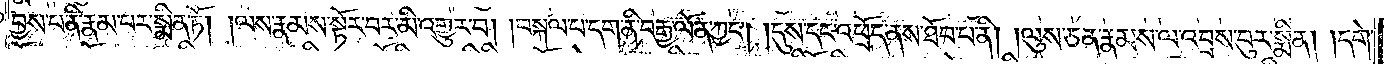བྱས་པ་ནི་རྣམ་པར་སྨིན་ཏོ། །ལས་རྣམས་སྟོར་བར་མི་འགྱུར་བ། །བསྐལ་པ་དག་ནི་བརྒྱ་ལོན་ཀྱང༌། །དུས་དང་འཕྲོད་ནས་ཐོབ་པ་ནི། །ལུས་ཅན་རྣམས་ལ་འབྲས་བུར་སྨིན། །དགེ་
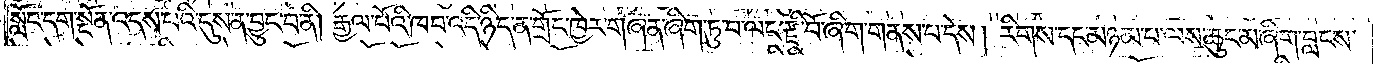སློང་དག་སྔོན་འདས་པའི་དུས་ན་བྱུང་བ་ནི། རྒྱལ་པོའི་ཁབ་འདི་ཉིད་ན་གྲོང་ཁྱེར་གཞན་ཞིག་ཏུ་བ་ལང་རྫི་བོ་ཞིག་གནས་པ་དེས། རིགས་དང་མཉམ་པ་ལས་ཆུང་མ་ཞིག་བླངས་
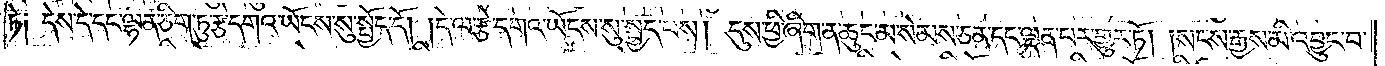ཏེ༑ དེས་དེ་དང་ལྷན་ཅིག་ཏུ་རྩེ་དགའ་ཡོངས་སུ་སྤྱོད་དོ། །དེ་ལ་རྩེ་དགའ་ཡོངས་སུ་སྤྱད་པས། དུས་ཕྱི་ཞིག་ན་ཆུང་མ་སེམས་ཅན་དང་ལྡན་པར་གྱུར་ཏོ། །སངས་རྒྱས་མི་འབྱུང་བ་
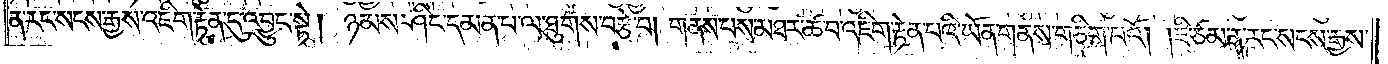ན་རང་སངས་རྒྱས་འཇིག་རྟེན་དུ་འབྱུང་སྟེ། ཉམས་ཤིང་དམན་པ་ལ་ཐུགས་བརྩེ་བ། གནས་པས་མཐར་ཚ་བ་འཇིག་རྟེན་པའི་ཡོན་གནས་གཅིག་པའོ། །ཇི་ཙམ་ན་རང་སངས་རྒྱས་
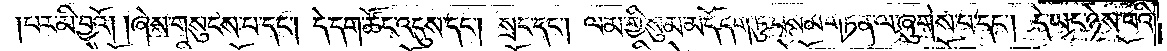པར་མི་བྱའོ། །ཞེས་གསུངས་པ་དང༌། དེ་དག་ཚོང་འདུས་དང༌། སྲང་དང༌། ལམ་གྱི་སུམ་མདོ་དག་ཏུ་བསམ་གཏན་ལ་ཞུགས་པ་དང༌། དེ་ཡང་ཉེས་པའི་
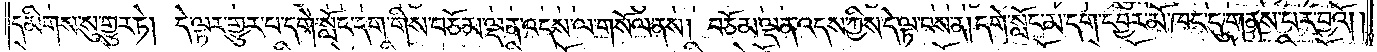དམིགས་སུ་གྱུར་ཏེ། དེ་ལྟར་གྱུར་པ་དགེ་སློང་དག་གིས་བཅོམ་ལྡན་འདས་ལ་གསོལ་ནས། བཅོམ་ལྡན་འདས་ཀྱིས་དེ་ལྟ་བས་ན། དགེ་སློང་མ་དག་དབྱར་མོ་ཁང་དུ་གནས་པར་བྱའོ། །
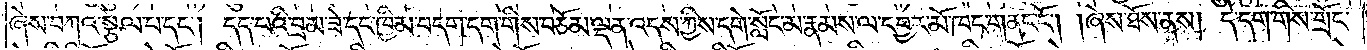ཞེས་བཀའ་སྩལ་པ་དང༌། དད་པའི་བྲམ་ཟེ་དང་ཁྱིམ་བདག་དག་གིས་བཅོམ་ལྡན་འདས་ཀྱིས་དགེ་སློང་མ་རྣམས་ལ་དབྱར་མོ་ཁང་གནང་ངོ༌། །ཞེས་ཐོས་ནས། དེ་དག་གིས་གྲོང་
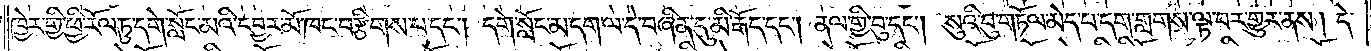ཁྱེར་གྱི་ཕྱི་རོལ་ཏུ་དགེ་སློང་མའི་དབྱར་མོ་ཁང་བརྩིགས་པ་དང༌། དགེ་སློང་མ་དག་ལ་དེ་བཞིན་དུ་མི་རྒོད་དང༌། ནལ་གྱི་བུ་དང༌། སུའི་བུ་གཏོལ་མེད་པ་དག་གླགས་ལྟ་བར་གྱུར་ནས།
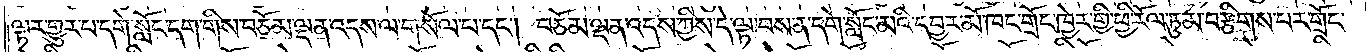ལྟར་གྱུར་པ་དགེ་སློང་དག་གིས་བཅོམ་ལྡན་འདས་ལ་གསོལ་པ་དང༌། བཅོམ་ལྡན་འདས་ཀྱིས་དེ་ལྟ་བས་ན་དགེ་སློང་མའི་དབྱར་མོ་ཁང་གྲོང་ཁྱེར་གྱི་ཕྱི་རོལ་ཏུ་མ་བརྩིགས་པར་གྲོང་
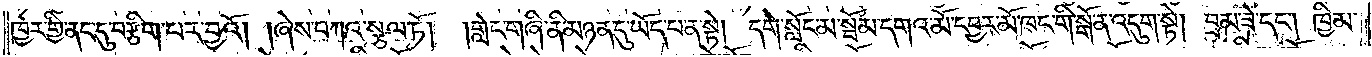ཁྱེར་གྱི་ནང་དུ་བརྩིག་པར་བྱའོ། །ཞེས་བཀའ་སྩལ་ཏོ། །གླེང་གཞི་ནི་མཉན་དུ་ཡོད་པ་ན་སྟེ། དགེ་སློང་མ་སྦོམ་དགའ་མོ་དབྱར་མོ་ཁང་གི་སྒོ་ན་འདུག་སྟེ། བྲམ་ཟེ་དང༌། ཁྱིམ་
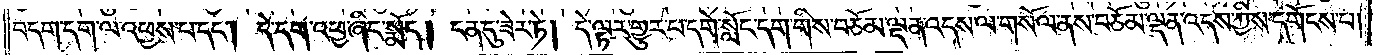བདག་དག་ལ་འཕྱས་པ་དང༌། དེ་དག་འཕྱ་ཞིང་སྨོད། ངན་དུ་ཟེར་ཏེ། དེ་ལྟར་གྱུར་པ་དགེ་སློང་དག་གིས་བཅོམ་ལྡན་འདས་ལ་གསོལ་ནས་བཅོམ་ལྡན་འདས་ཀྱིས་དགོངས་པ།
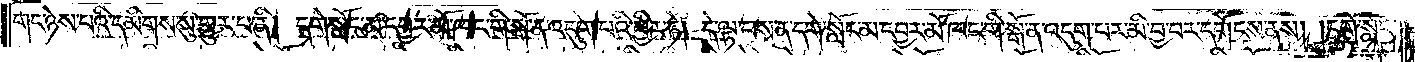གང་ཉེས་པའི་དམིགས་སུ་གྱུར་པ་ནི། དགེ་སློང་མ་དབྱར་མོ་ཁང་གི་སྒོ་ན་འདུག་པའི་ཕྱིར་ཏེ། དེ་ལྟ་བས་ན་དགེ་སློང་མ་དབྱར་མོ་ཁང་གི་སྒོ་ན་འདུག་པར་མི་བྱ་བར་དགོངས་ནས། །དགེ་སློང་
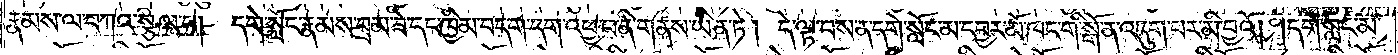རྣམས་ལ་བཀའ་སྩལ་པ། དགེ་སློང་རྣམས་བྲམ་ཟེ་དང་ཁྱིམ་བདག་དག་འཕྱ་བ་ནི་གནས་ཡིན་ཏེ། དེ་ལྟ་བས་ན་དགེ་སློང་མ་དབྱར་མོ་ཁང་གི་སྒོ་ན་འདུག་པར་མི་བྱའོ། །དགེ་སློང་མ་
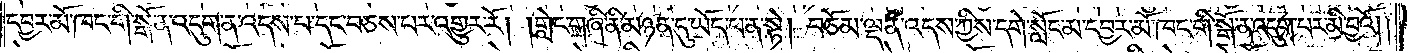དབྱར་མོ་ཁང་གི་སྒོ་ན་འདུག་ན་འདས་པ་དང་བཅས་པར་འགྱུར་རོ། །གླེང་གཞི་ནི་མཉན་དུ་ཡོད་པ་ན་སྟེ། བཅོམ་ལྡན་འདས་ཀྱིས་དགེ་སློང་མ་དབྱར་མོ་ཁང་གི་སྒོ་ན་འདུག་པར་མི་བྱའོ། །
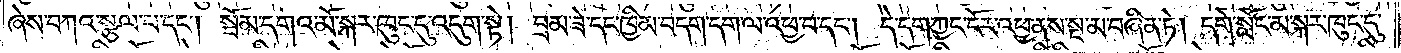ཞེས་བཀའ་སྩལ་པ་དང༌། སྦོམ་དགའ་མོ་སྐར་ཁུང་དུ་འདུག་སྟེ། བྲམ་ཟེ་དང་ཁྱིམ་བདག་དག་ལ་འཕྱ་བ་དང༌། དེ་དག་ཀྱང་ངོར་འཕྱ་ནས་སྔ་མ་བཞིན་ཏེ། དགེ་སློང་མ་སྐར་ཁུང་དུ་
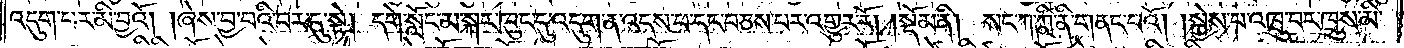འདུག་པར་མི་བྱའོ། །ཞེས་བྱ་བའི་བར་དུ་སྟེ། དགེ་སློང་མ་སྐར་ཁུང་དུ་འདུག་ན་འདས་པ་དང་བཅས་པར་འགྱུར་རོ། །སྡོམ་ནི། སང་ཀ་ཀྵི་ནི་གནང་བའོ། །སྐྱེས་པ་འཁྲུ་བར་ཁྲུས་མི་
